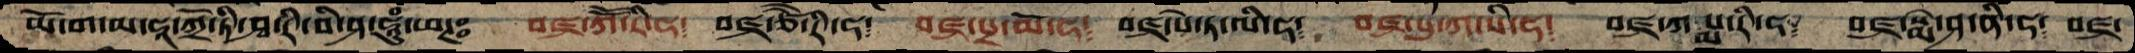ཡོ་ག་མ་ཧཱ་ཀྲོ་ཏི་རི་བི་ཤ་ཧཱུཾ་ཕཊཿ   བཛྲ་ཀཽ་རི་ཧ༴  བཛྲ་ཙཽ་རི་ཧ༴  བཛྲ་པྲ་མོ་ཧ༴ བཛྲ་པེ་ཏ་ལི་ཧ༴  བཛྲ་པུ་ཀ་སི་ཧ༴  བཛྲ་ཀསྨ་རི་ཧ༴  བཛྲ་སྨེ་ཤ་ནི་ཧ༴  བཛྲ་
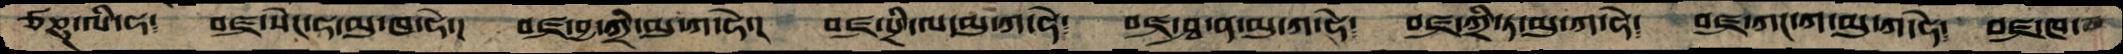ཙཎྜ་ལི་ཧ༴  བཛྲ་སེང་ཧ་མུ་ཁ་ཧེ་།  བཛྲ་བྱ་ཀྲི་མུ་ཀ་ཧེ་།  བཛྲ་པྲི་ལ་མུ་ཀ་ཧེ༴   བཛྲ་ཤྭ་ན་མུ་ཀ་ཧེ༴   བཛྲ་ཀྲི་ཏ་མུ་ཀ་ཧེ༴  བཛྲ་ཀང་ཀ་མུ་ཀ་ཧེ༴  བཛྲ་ཁ་
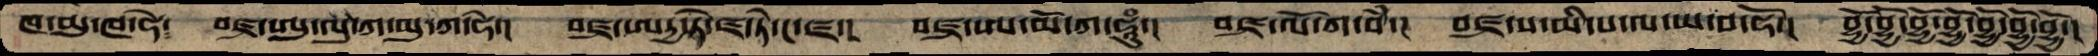ཁ་མུ་ཁ་ཧེ༴  བཛྲ་ཨུ་ལུ་ཀ་མུ་ཀ་ཧེ་།  བཛྲ་ཨདྱ་ཏེ་ཛ་ཏེ་ང་ཛ་། བཛྲ་ཨ་མོ་ཀ་ཧཱུཾ་།  བཛྲ་ལོ་ཀ་བཾ་།  བཛྲ་པ་མི་པ་ལ་ཡ་བ་ཧོ་།  བྷྱོ་བྷྱོ་བྷྱོ་བྷྱོ་བྷྱོ་བྷྱོ་བྷྱོ་།
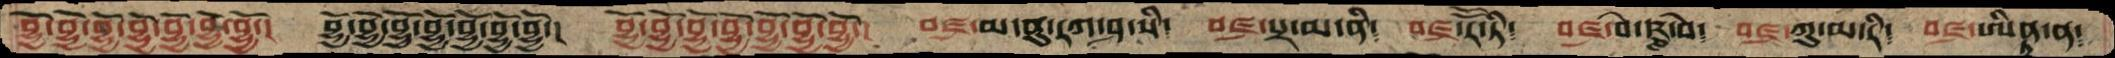བྷྱོ་བྷྱོ་བྷྱོ་བྷྱོ་བྷྱོ་བྷྱོ་བྷྱོ་།  བྷྱོ་བྷྱོ་བྷྱོ་བྷྱོ་བྷྱོ་བྷྱོ་བྷྱོ་།  བྷྱོ་བྷྱོ་བྷྱོ་བྷྱོ་བྷྱོ་བྷྱོ་བྷྱོ་།  བཛྲ་མ་ནུ་རཀ་ཤ་སི་  བཛྲ་པྲ་མ་ནི༴  བཛྲ་རཽ་ཏི༴  བཛྲ་བི་ཥྞ་སེ༴  བཛྲ་ཀུ་མ་རི༴  བཛྲ་ཨིནྟ་ན༴
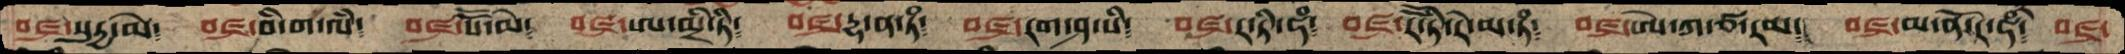བཛྲ་སུརྱ་མེ༴  བཛྲ་བི་ག་ལཾ༴  བཛྲ་སཽ་མེ༴  བཛྲ་ཨ་མྲི་ཏི༴  བཛྲ་དྷ་ན་ཏཾ༴  བཛྲ་རག་ཤ་སི༴    བཛྲ་ར་ཏི་ཧཾ༴  བཛྲ་རཽ་ཏི་རེ་མ་ཏཾ༴   བཛྲ་ཨེ་ཀ་ཙ་རམ༴  བཛྲ་མ་ནོ་ར་ཧཾ༴  བཛྲ་
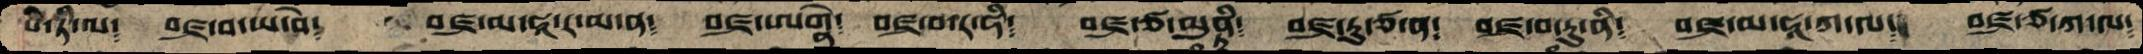པི་ཏི་ལ༴  བཛྲ་བ་ཡ་བེ༴  བཛྲ་མ་ཧཱ་ར་མ་ན༴  བཛྲ་ཨགྣེ༴ བཛྲ་བ་ར་ཧི༴  བཛྲ་ཙ་མུནྟི༴ བཛྲ་རུ་ཙ་ན༴  བཛྲ་བ་རུ་ནི༴  བཛྲ་མ་ཧཱ་ཀ་ལ༴  བཛྲ་ཙ་ཀ་ལ༴
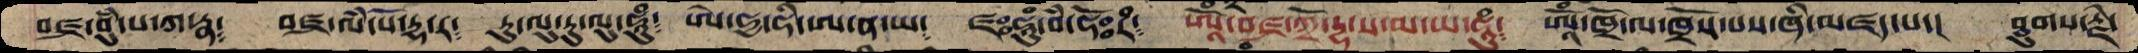བཛྲ་བུཾ་པ་ཀ་རྣ༴  བཛྲ་ལཾ་པོ་དྷ་ར༴  རུ་ལུ་རུ་ལུ་ཧཱུཾ༴ ཨེ་ཧྱ་ཧི་ཨ་ན་ཡ༴  ཛཿཧཱུཾ་བཾ་ཧོཿརཾ༴  ཨཱོཾ་བེཛྲ་ཀྲོ་དྷ་ས་མ་ཡ་ཧཱུཾ༴ ཨཱོཾ་ཁྲོ་ལ་ཁྲོས་པས་ཞི་མཛད་པ་།  ཐུགས་རྗེ་
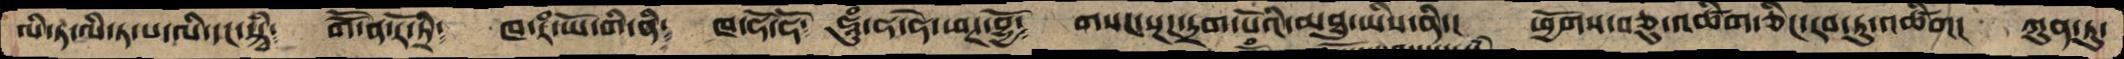ལི་ཏ་ལི་ཏ་པ་ལི་དང་སྟྭི༴  གཽ་ན་རོ་ཏྲི༴  ཁ་རཾ་ཡོ་གི་ནི༴ ཁ་ཧོ་ཧོ༴  ཧཱུཾ་ཧ་ཧོ་ཕཊ་བྷྱོ༴ གསང་སྔཌ་དྲག་པོའི་མཐུ་ཡིས་ནི་། ཕྱོགས་བཅུ་འཚིག་ཅིང་རབ་ཏུ་འཚིག།  ཀུན་ཏུ་
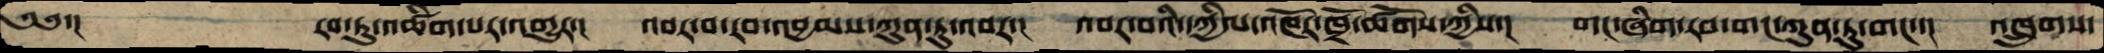༄༅་།       རབ་ཏུའཚིག་པར་འགྱུར་།  འབར་བ་རབ་འབྱམས་ཀུན་ཏུ་འབར་།  འབར་བའི་དཀྱིལ་འཁོར་ཁྲོ་ཚོགས་ཀྱིས་།  གང་ཞིག་རབ་གང་ཀུན་ཏུ་གང་་།  འཁྲུགས་
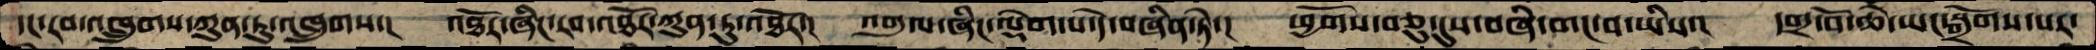དང་རབ་འཁྲུགས་ཀུན་ཏུ་འཁྲུགས་།  འཐོར་ཞིང་རབ་འཐོར་ཀུན་ཏུ་འཐོར་།  འགུལ་ཞིང་ལྡེག་པ་དེ་བཞིན་ཏེ་།  ཕྱོགས་བཅུ་དུས་བཞི་གང་བ་ཡིས་།  དགྲ་བོ་ཆེ་ཡང་སྒྲོགས་པར་
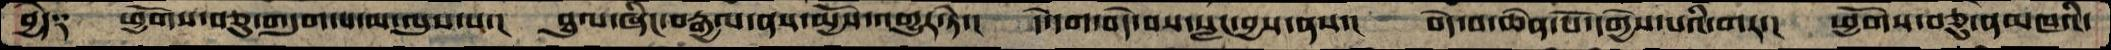བྱེད༑  ཕྱོགས་བཅུ་གདུག་པ་མ་ལུས་པ་།  ཐུལ་ཞིང་བརྒྱལ་ནས་མྱོས་འགྱུར་ཏེ་།  དེ་དག་བདེ་བས་སླང་བྱས་ནས་།  བདེ་བ་ཆེན་པོ་དགྱེས་པའི་གར་།  ཕྱོགས་བཅུ་ནམཁའི་
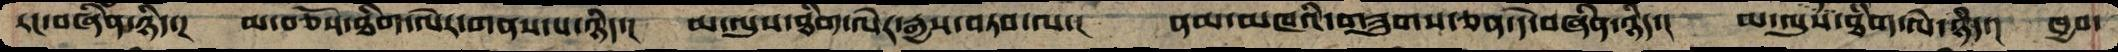རང་བཞིན་ཉིད་།  མ་བཅོས་ཐིག་ལེར་གནས་པ་ཉིད་།  མ་ལུས་ཐིག་ལེར་རྒྱས་བཏབ་ལ་།  ནམ་མཁའི་གཟུགས་ཅན་དེ་བཞིན་ཉིད་།  མ་ལུས་ཐིག་ལེ་ཉིད་།  ཁྱབ་
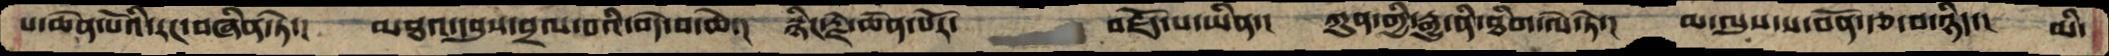པ་ཆེན་པོའི་རང་བཞིན་ཏེ་།  མཐའ་དབུས་བྲལ་བའི་བདེ་བ་ཆེ་།  སྙིང་རྗེ་ཆེན་པོར་   བརྗོད་པ་ཡིན་།  ཀུན་གྱི་རྒྱུ་ནི་ཐིག་ལེ་ཏེ་།  མ་ལུས་ས་བོན་རྩ་བ་ཉིད་།  མི་
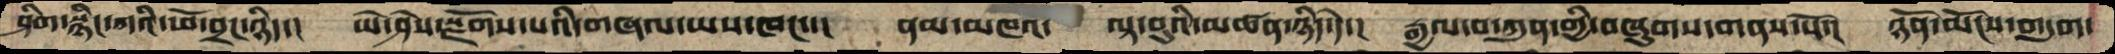ཤིག་སྙིང་ཀའི་ཕོ་བྲང་ཉིད་།  ཡེ་ཤེས་སྫོགས་པའི་གཞལ་ཡས་ཁང་་།  ནམ་མཁའ་   ལྟ་བུའི་མཚན་ཉིད་དེ་།  རྒྱལ་བ་ཀུན་གྱི་བཞུགས་གནས་སོ་།  ཉོན་མོངས་གདུག་
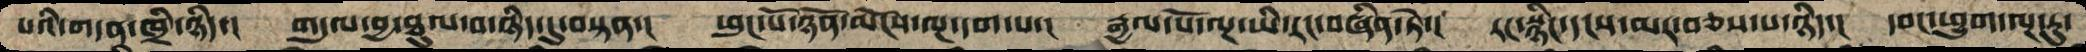པའི་གདན་ཁྲི་ཉིད་།  གདུལ་བྱ་ཐུལ་བ་ཉིད་དུ་བསྟན་།   ཕུང་པོ་ཉོན་མོངས་ལྔ་དག་པ་།   རྒྱལ་པོ་ལྔ་ཡི་རང་བཞིན་ཏེ་།   རང་སྙིང་དངས་མར་བཅས་པ་ཉིད་།  དབང་ཕྱུག་ལྔ་རུ་
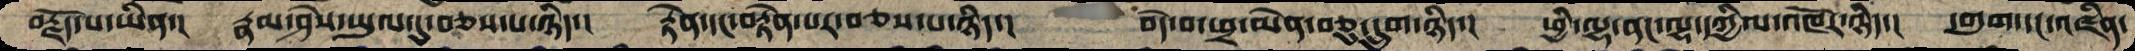བརྗོད་པ་ཡིན་།  རྣམ་ཤེས་ཡུལ་དུ་བཅས་པ་ཉིད་།  རྟེན་དང་བརྟེན་པར་བཅས་པ་ཉིད་།     བདེ་བ་ཕྲ་མེན་བཅུ་དྲུག་ཉིད་།   ཕྱི་ལྷ་ནང་ལྷ་དཀྱིལ་འཁོར་ཉིད་།  དགུག་དང་འཛིན་
